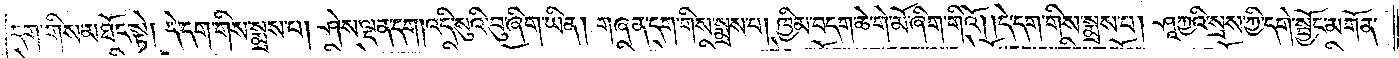དག་གིས་མཐོང་སྟེ། དེ་དག་གིས་སྨྲས་པ། ཤེས་ལྡན་དག །འདི་སུའི་བུ་ཞིག་ཡིན། གཞན་དག་གིས་སྨྲས་པ། ཁྱིམ་བདག་ཆེ་གེ་མོ་ཞིག་གིའོ། །དེ་དག་གིས་སྨྲས་པ། ཤཱཀྱའི་སྲས་ཀྱི་དགེ་སྦྱོང་མགོན་
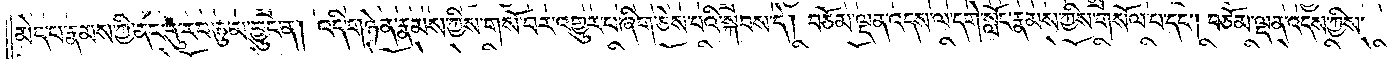མེད་པ་རྣམས་ཀྱི་ནང་དུ་རབ་ཏུ་མ་བྱུང་ན། འདི་གཉེན་རྣམས་ཀྱིས་གསོ་བར་འགྱུར་པ་ཞིག་ཅེས་པའི་སྐབས་དེ། བཅོམ་ལྡན་འདས་ལ་དགེ་སློང་རྣམས་ཀྱིས་གསོལ་པ་དང༌། བཅོམ་ལྡན་འདས་ཀྱིས་
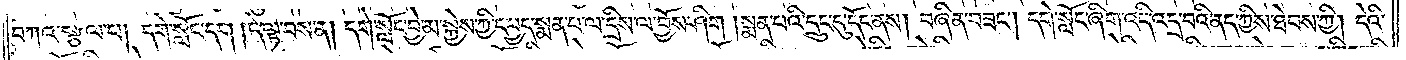བཀའ་སྩལ་པ། དགེ་སློང་དག །དེ་ལྟ་བས་ན། དགེ་སློང་བྱེ་མ་སྐྱེས་ཀྱི་དཔྱད་སྨན་པ་ལ་དྲིས་ལ་བྱོས་ཤིག །སྨན་པའི་དྲུང་དུ་དོང་ནས། བཞིན་བཟང༌། དགེ་སློང་ཞིག་འདི་འདྲ་བའི་ནད་ཀྱིས་ཐེབས་ཀྱི། དེའི་
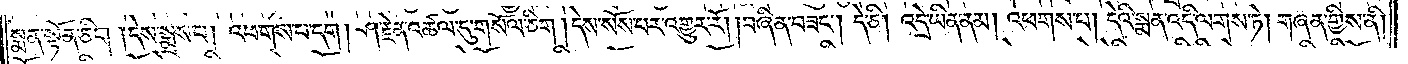སྨན་སྟོན་ཅིག །དེས་སྨྲས་པ། འཕགས་པ་དང༌། ཤ་རྗེན་འཚལ་དུ་གསོལ་ཅིག །དེས་སོས་པར་འགྱུར་རོ། །བཞིན་བཟང༌། དེ་ཅི། འདྲེ་ཡིན་ནམ། འཕགས་པ། དེའི་སྨན་འདི་ལགས་ཏེ། གཞན་གྱིས་ནི།
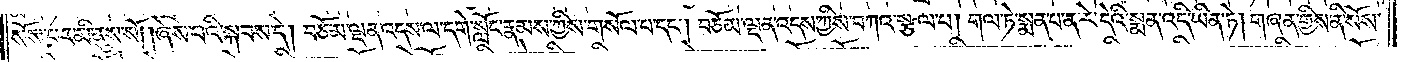སོས་པར་མི་ནུས་སོ། །ཞེས་པའི་སྐབས་དེ། བཅོམ་ལྡན་འདས་ལ་དགེ་སློང་རྣམས་ཀྱིས་གསོལ་པ་དང༌། བཅོམ་ལྡན་འདས་ཀྱིས་བཀའ་སྩལ་པ། གལ་ཏེ་སྨན་པ་ན་རེ་དེའི་སྨན་འདི་ཡིན་ཏེ། གཞན་གྱིས་ནི་སོས་
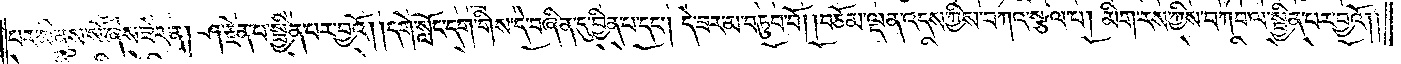པར་མི་ནུས་སོ་ཟེར་ན། ཤ་རྗེན་པ་སྦྱིན་པར་བྱའོ། །དགེ་སློང་དག་གིས་དེ་བཞིན་དུ་བྱིན་པ་དང༌། དེ་ཟར་མ་བཏུབ་བོ། །བཅོམ་ལྡན་འདས་ཀྱིས་བཀའ་སྩལ་པ། མིག་རས་ཀྱིས་བཀབ་ལ་སྦྱིན་པར་བྱའོ༎
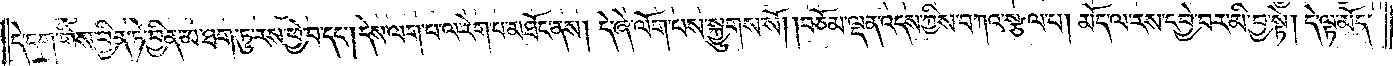དེ་དག་གིས་བྱིན་ཏེ་བྱིན་མ་ཐག་ཏུ་རས་ཕྱེ་བ་དང༌། དེས་ལག་པ་ལ་རེག་པ་མཐོང་ནས། དེ་ཞེ་ལོག་པས་སྐྱུགས་སོ། །བཅོམ་ལྡན་འདས་ཀྱིས་བཀའ་སྩལ་པ། མོད་ལ་རས་དབྱེ་བར་མི་བྱས་ཏེ། དེ་ལྟ་མོད་
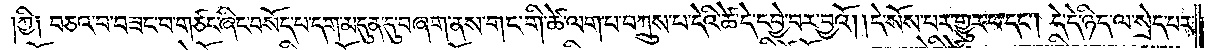ཀྱི༑ བཅའ་བ་བཟང་བ་གཙང་ཞིང་བསོད་པ་དག་མདུན་དུ་བཞག་ནས་གང་གི་ཚེ་ལག་པ་བཀྲུས་པ་དེའི་ཚེ་དེ་དབྱེ་བར་བྱའོ། །དེ་སོས་པར་གྱུར་པ་དང༌། དེ་དེ་ཉིད་ལ་སྲེད་པར་
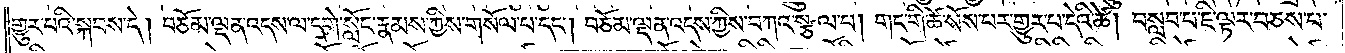གྱུར་པའི་སྐབས་དེ། བཅོམ་ལྡན་འདས་ལ་དགེ་སློང་རྣམས་ཀྱིས་གསོལ་པ་དང༌། བཅོམ་ལྡན་འདས་ཀྱིས་བཀའ་སྩལ་པ། གང་གི་ཚེ་སོས་པར་གྱུར་པ་དེའི་ཚེ། བསླབ་པ་ཇི་ལྟར་བཅས་པ་
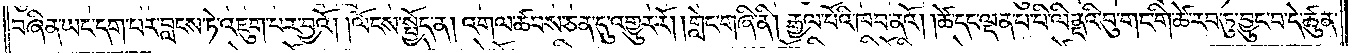བཞིན་ཡང་དག་པར་བླངས་ཏེ་འཇུག་པར་བྱའོ། །ལོངས་སྤྱོད་ན། འགལ་ཚབས་ཅན་དུ་འགྱུར་རོ། །གླེང་གཞི་ནི། རྒྱལ་པོའི་ཁབ་ནའོ། །ཚེ་དང་ལྡན་པ་པི་ལིནདའི་བུ་གང་གི་ཚེ་རབ་ཏུ་བྱུང་བ་དེ་ཚུན་
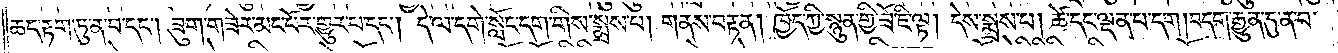ཆད་རྟག་ཏུ་ན་པ་དང༌། ཟུག་གཟེར་མང་པོར་གྱུར་པ་དང༌། དེ་ལ་དགེ་སློང་དག་གིས་སྨྲས་པ། གནས་བརྟན། ཁྱོད་ཀྱི་སྙུན་གྱི་ཟོ་ཇི་ལྟ། དེས་སྨྲས་པ། ཚེ་དང་ལྡན་པ་དག །བདག་རྒྱུན་དུ་ན་བ་
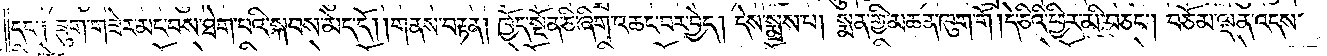དང་༑  ཟུག་གཟེར་མང་པས་ཐེག་པའི་སྐབས་མེད་དོ། །གནས་བརྟན། ཁྱོད་སྔོན་ཅི་ཞིག་འཆང་བར་བྱེད། དེས་སྨྲས་པ། སྨན་གྱི་མཆན་ཁུག་གོ །དེ་ཅིའི་ཕྱིར་མི་བཅང༌། བཅོམ་ལྡན་འདས་
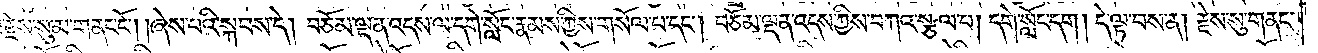ཀྱིས་རྗེས་སུ་མ་གནང་ངོ༌། །ཞེས་པའི་སྐབས་དེ། བཅོམ་ལྡན་འདས་ལ་དགེ་སློང་རྣམས་ཀྱིས་གསོལ་པ་དང༌། བཅོམ་ལྡན་འདས་ཀྱིས་བཀའ་སྩལ་པ། དགེ་སློང་དང༌། དེ་ལྟ་བས་ན། རྗེས་སུ་གནང་
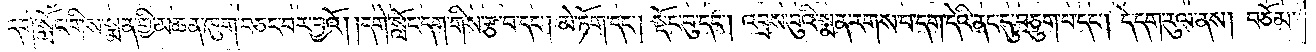སྟེ༑ དགེ་སློང་གིས་སྨན་གྱི་མཆན་ཁུག་བཅང་བར་བྱའོ། །དགེ་སློང་དག་གིས་རྩ་བ་དང༌། མེ་ཏོག་དང༌། སྡོང་བུ་དང༌། འབྲས་བུའི་སྨན་རགས་པ་དག་དེའི་ནང་དུ་བཅུག་པ་དང༌། དེ་དག་རུལ་ནས། བཅོམ་
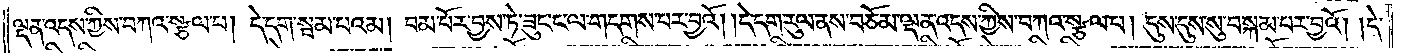ལྡན་འདས་ཀྱིས་བཀའ་སྩལ་པ། དེ་དག་སྦམ་པའམ། བམ་པོར་བྱས་ཏེ་ཟུང་ང་ལ་གདགས་པར་བྱའོ། །དེ་དག་རུལ་ནས་བཅོམ་ལྡན་འདས་ཀྱིས་བཀའ་སྩལ་པ། དུས་དུས་སུ་བསྐམ་པར་བྱའོ། །དེ་
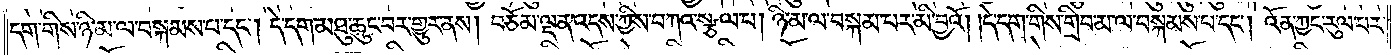དག་གིས་ཉི་མ་ལ་བསྐམས་པ་དང༌། དེ་དག་མཐུ་ཆུང་བར་གྱུར་ནས། བཅོམ་ལྡན་འདས་ཀྱིས་བཀའ་སྩལ་པ། ཉི་མ་ལ་བསྐམ་པར་མི་བྱའོ། །དེ་དག་གིས་གྲིབ་མ་ལ་བསྐམས་པ་དང༌། འོན་ཀྱང་རུལ་པར་
